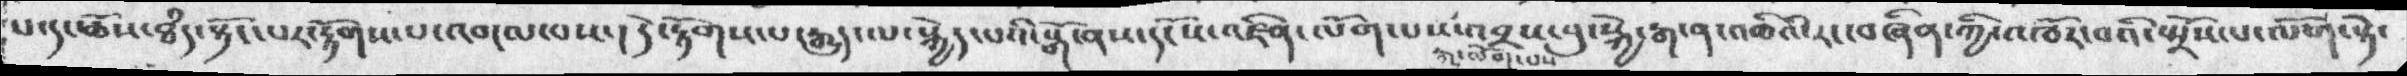པ་དང་ཆོས་ཐཾད་སྟོང་པར་རྟོགས་པ་འགལ་བས་།  དེ་རྟོགས་པ་རྒྱུད་པ་སྐྱེད་པའི་སྒོ་ནས་དངོས་འཛིན་ལོག་པས་འབྲས་བུ་སྐྱེ་རྒ་ན་འཆིའི་རང་བཞིན་ཀྱི་འཁོར་བའི་སྤྲོས་པ་ལོག་སྟེ་
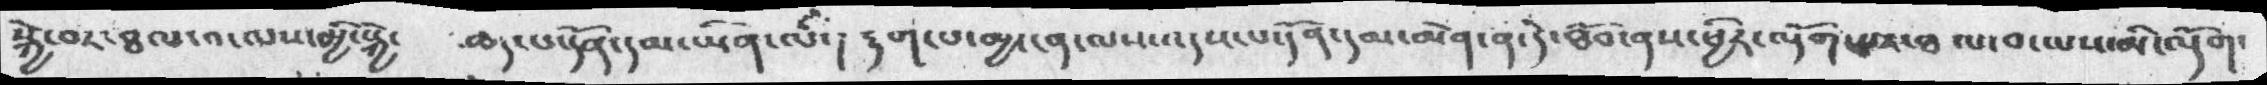སྐྱེ་བར་ཐལ་བ་ལས་མྱི་སྐྱེ་   ཆད་པ་དོན་དམ་ཡིན་ལ་། རྟག་པ་མྱ་ངན་ལས་འདས་པ་དོན་དམ་མིན་ན་དེ་ཐོབ་ནས་ཕྱིར་འདོག་པར་ཐལ་བ་ལས་མི་ལྡོག་
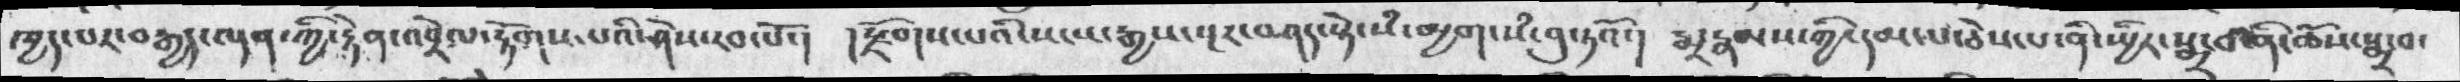ཁྱད་པར་བརྒྱད་ལྡན་ཀྱི་རྟེན་འབྲེལ་རྟོགས་པའི་ཤེས་རབ་པོ་།  །རྫོགས་པའི་སངས་རྒྱས་སྔར་བཤད་སྟེ་སཾ་མྱག་སཾ་བུ་ཏའོ་།  རྨྲ་རྣམས་ཀྱི་དམ་པ་ཅེས་པ་ནི་སྤྱིར་སྨྲ་བ་ནི་ཆོས་སྨྲ་བ་
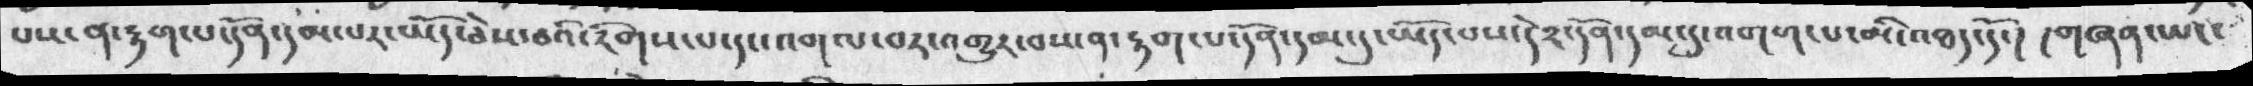པས་ན་རྟག་པ་དོན་དམ་པར་ཡོད་ཅེས་བའི་རིགས་པ་དང་འགལ་བར་འགྱུར་བས་ན་རྟག་པ་དོན་དམ་དུ་ཡོད་པས་དེར་དོན་དམ་དུ་འགག་པ་མི་འཐད་དོ་།  །གཞན་ཡང་
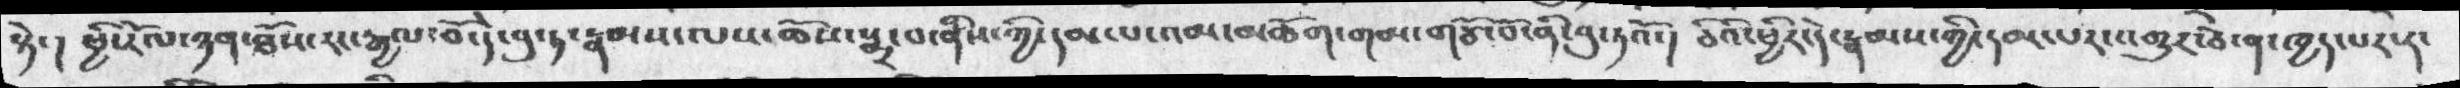སྟེ་།  ཕྱི་རོལ་ཉན་ཐོས་རང་རྒྱལ་བོ་དེ་བུ་ཏ་རྣམས་ལས་ཆོས་སྨྲ་བ་ནིས་ཀྱི་དམ་པ་འམ་མཆོག་གམ་གཙོ་བོ་ནི་བུ་ཏའོ་།  ཅེའི་ཕྱིར་དེ་རྣམས་ཀྱི་དམ་པར་འགྱུར་ཅེ་ན་ཁྱད་པར་དང
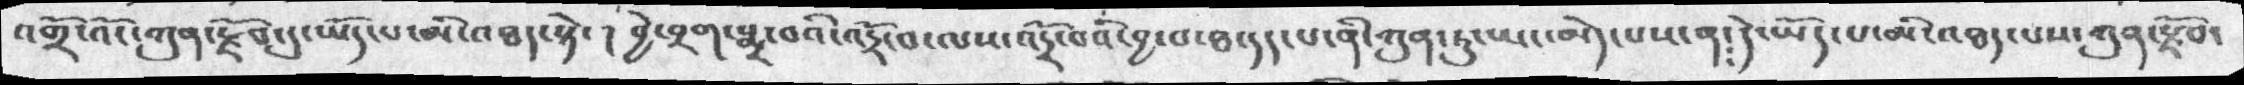འགྲོ་འོང་ཀུན་རྫོབ་དུ་ཡོད་པ་མི་འཐད་སྟེ་།  བྱེ་བྲག་སྨྲ་བའི་སདྲོ་བ་ལས་འདྲོ་བའི་བྱ་བ་ཐ་དད་པ་ནི་ཀུན་ཏུ་ཡང་མེད་པས་ན་དེ་ཡོད་པ་མི་འཐད་པས་ཀུན་རྫོབ་
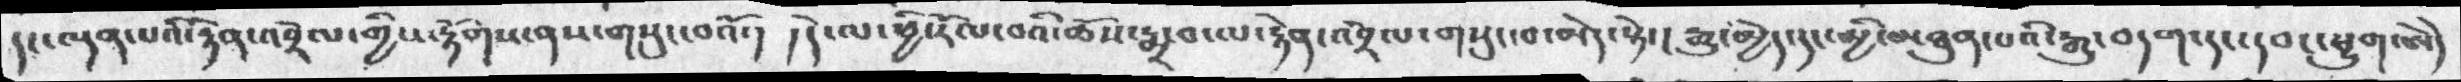དང་ལྡན་པའི་རྟེན་འབྲེལ་གྱིས་རྟོགས་ནས་གསུང་བའོ་།   །དེ་ལ་ཕྱི་རོལ་བའི་ཆོས་སྨྲ་བ་ལ་རྟེན་འབྲེལ་གསུང་བ་མེད་སྟེ་།  རྒྱུ་མྱེད་དང་མྱི་མཐུན་པའི་རྒྱུ་བདག་དང་དབང་ཕྱུག་ཨེེ།
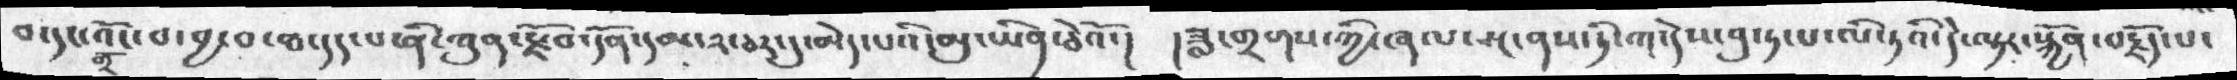བ་དང་གྲོ་འོང་བ་བྱ་བ་ཐ་དད་པ་ནི་ཀུན་རྫོབ་དོན་དམ་༢་ཅར་དུ་མེད་པའི་མུ་ཡིན་ཅེའོ་།  ། ཟླ་གྲགས་ཀྱི་ཞལ་སྔ་ནས་ཏི་ག་དེས་བུ་ཏ་པ་ལི་ཏའི་དེ་ལྟར་སྐྱོན་བརྗོད་པ་
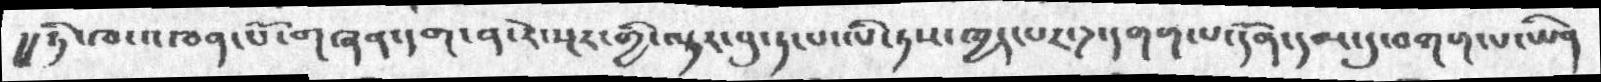།། ཏི་ཁ་འཁན་པོ་གཞན་དག་ན་རེ་སྔར་གྱི་ལྟར་བུ་ཏ་པ་ལི་ཏས་ཁྱད་པར་དུ་དགག་པ་དོན་དམ་དུ་བགག་པ་ཡིན་
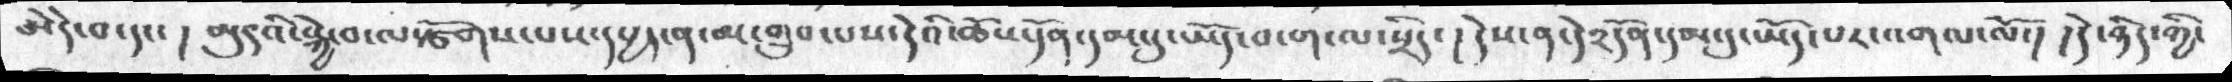ཨེདེ་བ་དང་།མུདའི་སྐྱེ་བ་ལ་རྩོགས་པས་དཔྱད་ན་མ་གྲུབ་པས་དེའི་ཆོས་དོན་དམ་དུ་ཡོད་པ་ག་ལ་སྲིད་། དེས་ན་དེ༢དོན་དམ་དུ་ཡོད་པར་འགལ་ལོ་། །དེ་ཉིད་ཀྱི་
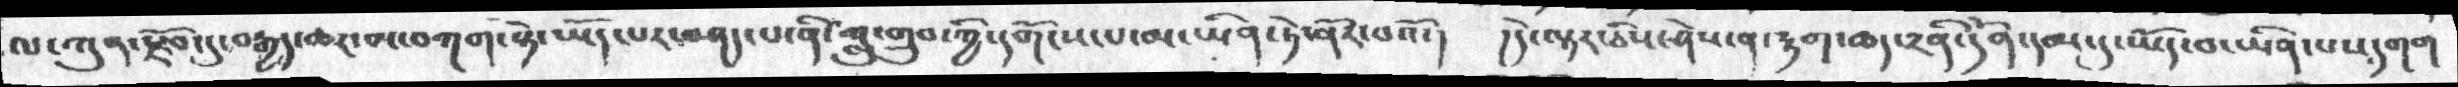ལ་ཀུན་རྫོབ་དུ་བརྒྱད་ཆར་མ་བཀག་སྟེ་ཡོད་པར་བཤད་པ་ནི་གླུ་གྲུབ་ཀྱི་དགོངས་པ་མ་ཡིན་ཏེ་ནོར་བའོ་། །དེ་ལྟར་ཅིས་ཤེས་ན་སྟག་ཆད་༢ནི་དོན་དདམ་དུ་ཡོད་པ་ཡིན་པས་དགག་
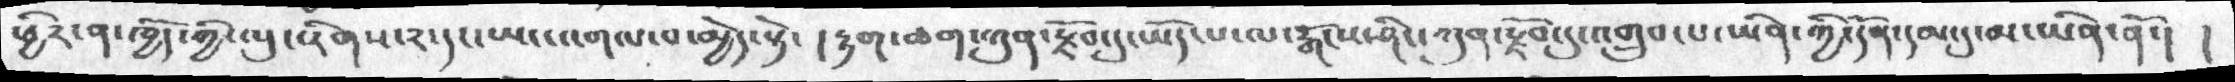ཕྱིར་ན་ཁྱོད་གྱི་ལུང་རིགས་༢་དང་ཡང་འགལ་བ་མྱེད་སྟེ་། རྟག་ཆག་ཀུན་རྫོབ་ཏུ་ཡོད་པ་ལ་རྒོངས་ཤིང་ཀུན་རྫོབ་དུ་འགྲུབ་པ་ཡིན་ཀྱི་དོན་དམ་དུ་མ་ཡིན་ནོ་། །
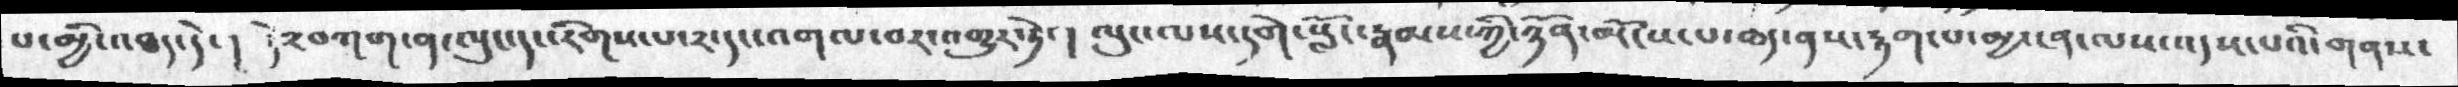པ་མྱི་འཐད་དེ་ ། དེ༢བཀག་ན་ལུང་དང་རིགས་པ་༢་དང་འགལ་བར་འགྱུར་ཏེ་། ལུང་ལས་དགེ་སློང་རྣམས་ཀྱི་ཉོན་མོངས་པ་ཆད་ནས་རྟག་པ་མྱ་ངན་ལས་འདས་པའི་གནས་
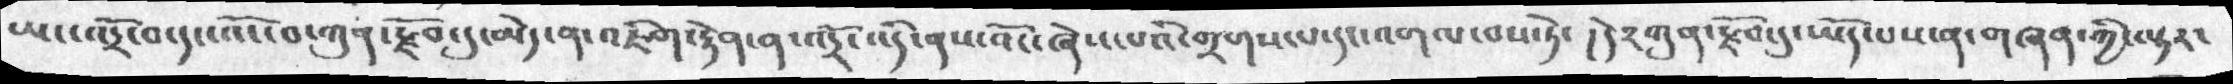ཡང་འདྲོ་བ་དང་འོང་བ་ཀུན་རྗོབ་དུ་མེད་ན་འཇིག་རྟེན་ན་འདྲོ་འདི་ནས་འོང་ཞེས་པའི་གྲགས་པ་དང་འགལ་བས་ཏེ་  །དེ༢ཀུན་རྗོབ་དུ་ཡོད་པས་ན་གཞན་ཀྱི་ལྟར་
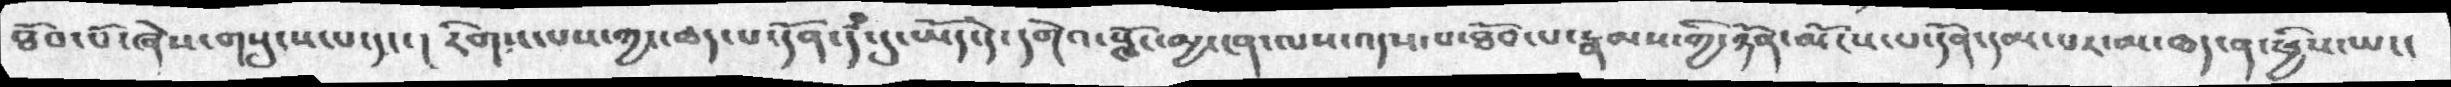ཐོབ་པོ་ཞེས་གསུངས་པ་དང་ ། རིགས་པས་ཀྱང་ཆད་པ་དོན་ད་ཾདུ་ཡོད་དེ་དགེའ་སློང་མྱ་ངན་ལས་འདས་པ་ཐོབ་པ་རྣམས་ཀྱི་ཉོན་མོངས་པ་དོན་དམ་པར་མ་ཆད་ན་ཕྱིས་ཡང་
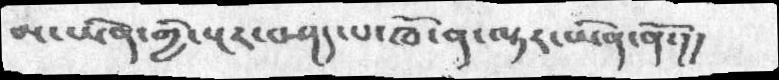མ་ཡིན་གྱི་སར་བཤད་པ་ཁོ་ན་ལྟར་ཡིན་ནོ་།།
